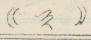( ༣ )
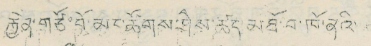རྐྱེན་གཙོ་བོ་མང་ཚོགས་ཤེས་ཚད་མཐོ་བ་ཁོ་ནའི་
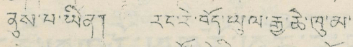ནུས་པ་ཡིན། རང་རེ་བོད་ཡུལ་རྒྱ་ཆེ་ཁུ་མ་
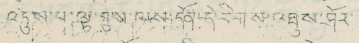འདུས་པ་ལྟ་བུས་ལས་དོན་དེ་རིགས་འཐུས་ཤོར་
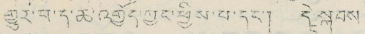གྱུར་བ་ད་ཆ་འགྱོད་ཀྱང་ཕྱིས་པ་དང་། དེ་སྐབས་
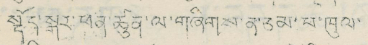སྟོད་སྒར་ཕན་ཚུན་ལ་གཞིགས་ན་རམ་པ་ཁུལ་
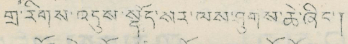གྲ་རིགས་འདུས་སྡོད་སར་ལས་ཤུགས་ཆེ་ཞིང་།
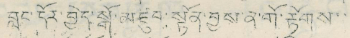གླང་དོར་བྱེད་སྒོ་མཛུབ་སྟོན་བྱས་ན་གོ་རྟོགས་་
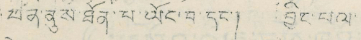ཕན་ནུས་ཐོན་པ་ཡོང་བ་དང་། བྱང་པལ་
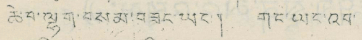ཆེ་བ་ལྷག་བསམ་བཟང་ཡང་། གང་ཡང་འབ་
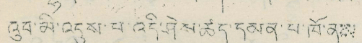འུབ་མི་འདུས་པ་འདི་ཤེས་ཚད་དམན་པ་ཁོ་ནས་
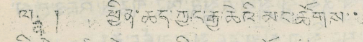ལན ། ཕྱིན་ཆད་ཀྱང་རྒྱ་ཆེའི་མང་ཚོགས་་
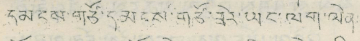དམངས་གཙོ་དམངས་གཙོ་ཟེར་ཡང་ལག་ལེན་
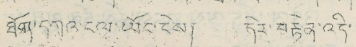ཐོག་དཀའ་ངལ་ཡོང་ངེས། དེར་བརྟེན་འདི་
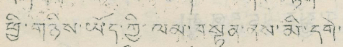ཕྱི་གཉིས་ཡོད་ཀྱི་ལམ་བསྟན་ནས་མི་དགེ་
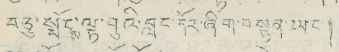བཅུ་སྤོངས་ལྟ་བུའི་བླང་དོར་ཞིག་བསྟན་ཡང་།
